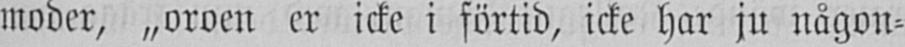moder, „oroen er icke i förtid, icke har ju nägon-
